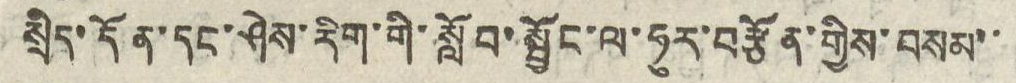སྲིད་དོན་དང་ཤེས་རིག་གི་སློབ་སྦྱོང་ལ་ཧུར་བརྩོན་གྱིས་བསམ་་
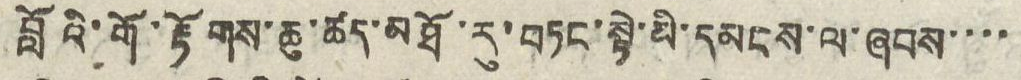བློའི་གོ་རྟོགས་ཆུ་ཚད་མཐོ་རུ་བཏང་སྟེ་མི་དམངས་ལ་ཞབས་་་་
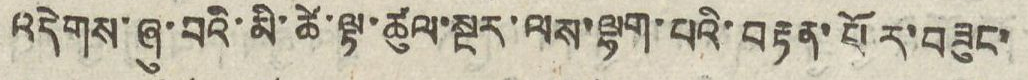འདེགས་ཞུ་བའི་མི་ཚེ་ལྟ་ཚུལ་སྔར་ལས་ལྷག་པའི་བརྟན་པོར་བཟུང་
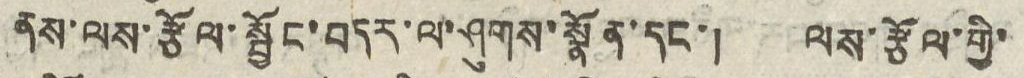ནས་ལས་རྩོལ་སྦྱོང་བདར་ལ་ཤུགས་སྣོན་དང་། ལས་རྩོལ་གྱི་
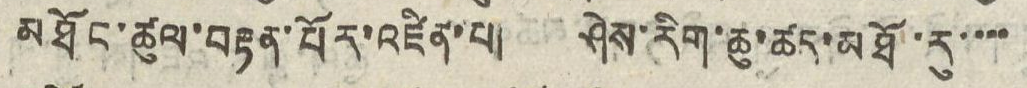མཐོང་ཚུལ་བརྟན་པོར་འཛིན་པ། ཤེས་རིག་ཆུ་ཚད་མཐོ་རུ་་་་
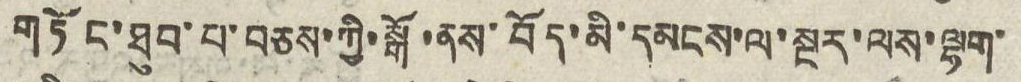གཏོང་ཐུབ་པ་བཅས་ཀྱི་སྒོ་ནས་བོད་མི་དམངས་ལ་སྔར་ལས་ལྷག་
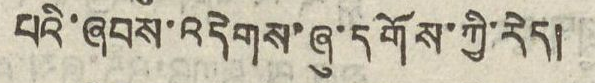པའི་ཞབས་འདེགས་ཞུ་དགོས་ཀྱི་རེད།
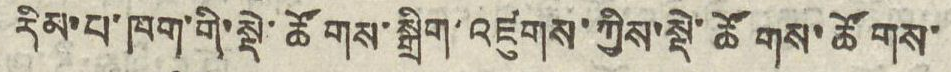རིམ་པ་ཁག་གི་སྡེ་ཚོགས་སྒྲིག་འཛུགས་ཀྱིས་སྡེ་ཚོགས་ཚོགས་
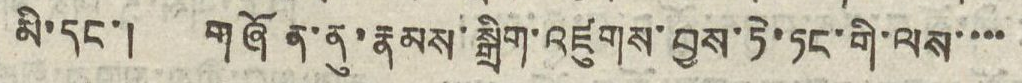མི་དང་། གཞོན་ནུ་རྣམས་སྒྲིག་འཛུགས་བྱས་ཏེ་ཏང་གི་ལས་་་་
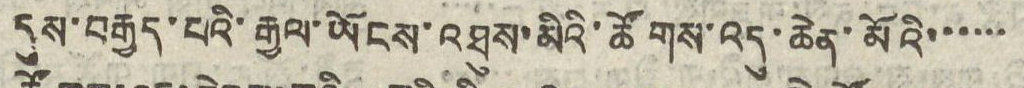དུས་བརྒྱད་པའི་རྒྱལ་ཡོངས་འཐུས་མིའི་ཚོགས་འདུ་ཆེན་མོའི་་་་་་
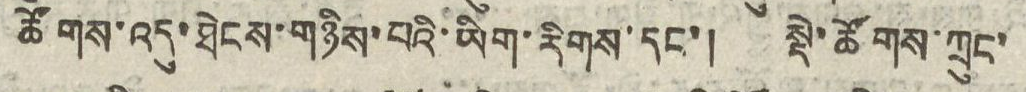ཚོགས་འདུ་ཐེངས་གཉིས་པའི་ཡིག་རིགས་དང་། སྡེ་ཚོགས་ཀྲུང་
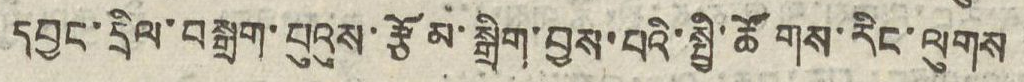དབྱང་དྲིལ་བསྒྲག་པུའུས་རྩོམ་སྒྲིག་བྱས་པའི་སྤྱི་ཚོགས་རིང་ལུགས
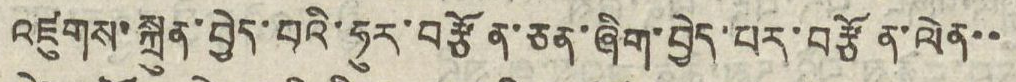འཛུགས་སྐྲུན་བྱེད་པའི་ཧུར་བརྩོན་ཅན་ཞིག་བྱེད་པར་བརྩོན་ལེན་་
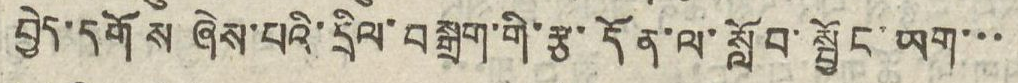བྱེད་དགོས ཞེས་པའི་དྲིལ་བསྒྲག་གི་རྩ་དོན་ལ་སློབ་སྦྱོང་ཡག་་་
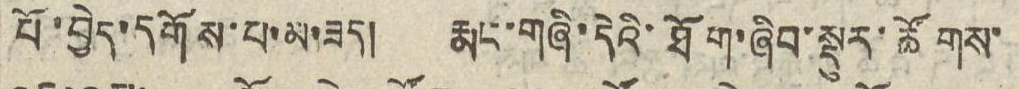པོ་བྱེད་དགོས་པ་མ་ཟད། རྨང་གཞི་དེའི་ཐོག་ཞིབ་སྡུར་ཚོགས་
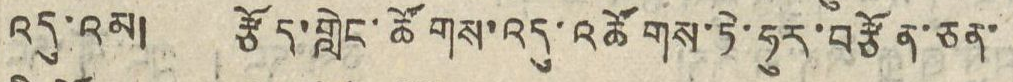འདུ་འམ། རྩོད་གླེང་ཚོགས་འདུ་འཚོགས་ཏེ་ཧུར་བརྩོན་ཅན་
